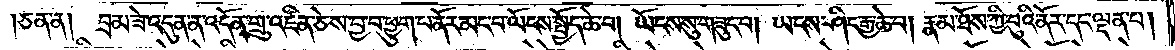ཅན་ན། བྲམ་ཟེ་འདུན་ན་འདོན་གྲུ་འཛིན་ཅེས་བྱ་བ་ཕྱུག་པ་ནོར་མང་བ་ལོངས་སྤྱོད་ཆེ་བ། ཡོངས་སུ་གཟུང་བ། ཡངས་ཤིང་རྒྱ་ཆེ་བ། རྣམ་ཐོས་ཀྱི་བུའི་ནོར་དང་ལྡན་པ།
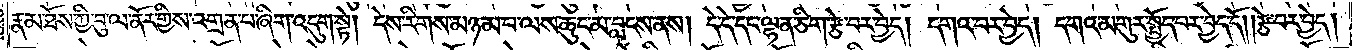རྣམ་ཐོས་ཀྱི་བུ་ལ་ནོར་གྱིས་འགྲན་པ་ཞིག་འདུག་སྟེ། དེས་རིགས་མཉམ་པ་ལས་ཆུང་མ་བླངས་ནས། དེ་དེ་དང་ལྷན་ཅིག་རྩེ་བར་བྱེད། དགའ་བར་བྱེད། དགའ་མགུར་སྤྱོད་པར་བྱེད་དོ། །རྩེ་བར་བྱེད།
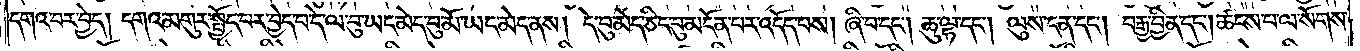དགའ་བར་བྱེད། དགའ་མགུར་སྤྱོད་པར་བྱེད་པ་དེ་ལ་བུ་ཡང་མེད་བུ་མོ་ཡང་མེད་ནས། དེ་བུ་མེད་ཅིང་བུ་མངོན་པར་འདོད་པས། ཞི་བ་དང༌། ཆུ་ལྷ་དང༌། ལུས་ངན་དང༌། བརྒྱ་བྱིན་དང༌། ཚངས་པ་ལ་སོགས་
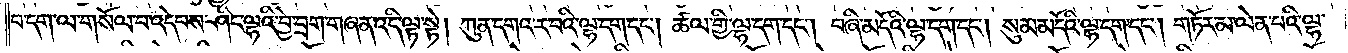བ་དག་ལ་གསོལ་པ་འདེབས་ཤིང་ལྷའི་བྱེ་བྲག་གཞན་འདི་ལྟ་སྟེ། ཀུན་དགའ་ར་བའི་ལྷ་དག་དང༌། ཚལ་གྱི་ལྷ་དག་དང༌། བཞི་མདོའི་ལྷ་དག་དང༌། སུམ་མདོའི་ལྷ་དག་དང༌། གཏོར་མ་ལེན་པའི་ལྷ་
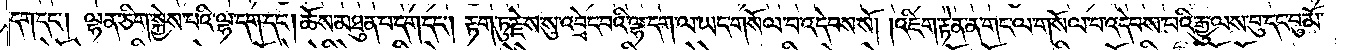དག་དང༌། ལྷན་ཅིག་སྐྱེས་པའི་ལྷ་དག་དང༌། ཆོས་མཐུན་པ་དག་དང༌། རྟག་ཏུ་རྗེས་སུ་འབྲེང་བའི་ལྷ་དག་ལ་ཡང་གསོལ་བ་འདེབས་སོ། །འཇིག་རྟེན་ན་གང་ལ་གསོལ་བ་འདེབས་པའི་རྒྱུ་ལས་བུ་དང་བུ་མོ་
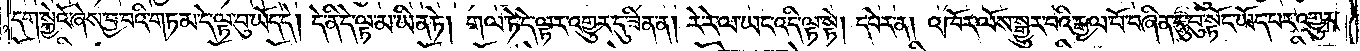དག་སྐྱེའོ་ཞེས་བྱ་བའི་གཏམ་དེ་ལྟ་བུ་ཡོད་དེ། དེ་ནི་དེ་ལྟ་མ་ཡིན་ཏེ། གལ་ཏེ་དེ་ལྟར་འགྱུར་དུ་ཟིན་ན། རེ་རེ་ལ་ཡང་འདི་ལྟ་སྟེ། དཔེར་ན། འཁོར་ལོས་སྒྱུར་བའི་རྒྱལ་པོ་བཞིན་དུ་བུ་སྟོང་ཡོད་པར་འགྱུར་
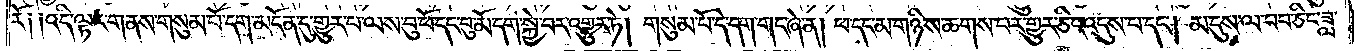རོ༑ ༑འདི་ལྟར་གནས་གསུམ་པོ་དག་མངོན་དུ་གྱུར་པ་ལས་བུ་ཕོ་དང་བུ་མོ་དག་སྐྱེ་བར་འགྱུར་ཏེ། གསུམ་པོ་དེ་དག་གང་ཞེ་ན། ཕ་དང་མ་གཉིས་ཆགས་པར་གྱུར་ཅིང་འདུས་པ་དང༌། མ་དུས་ལ་བབ་ཅིང་ཟླ་
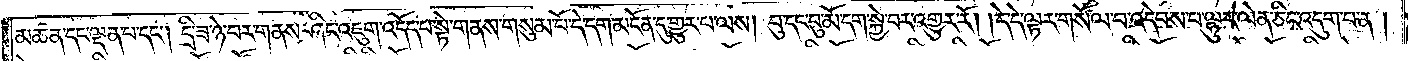མཚན་དང་ལྡན་པ་དང༌། དྲི་ཟ་ཉེ་བར་གནས་ཤིང་འཇུག་འདོད་པ་སྟེ་གནས་གསུམ་པོ་དེ་དག་མངོན་དུ་གྱུར་པ་ལས། བུ་དང་བུ་མོ་དག་སྐྱེ་བར་འགྱུར་རོ། །དེ་དེ་ལྟར་གསོལ་པ་འདེབས་པ་ལྷུར་ལེན་ཅིང་འདུག་པ་ན།
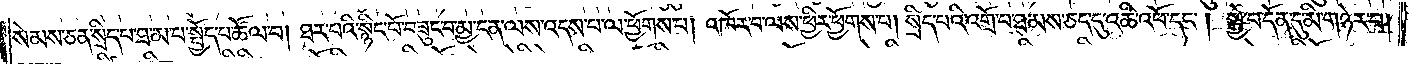སེམས་ཅན་སྲིད་པ་ཐ་མ་པ་སྤྱོད་པ་ཚོལ་བ། ཐར་པའི་སྙིང་པོ་བཟུང་བ་མྱ་ངན་ལས་འདས་པ་ལ་ཕྱོགས་པ། འཁོར་བ་ལས་ཕྱིར་ཕྱོགས་པ། སྲིད་པའི་འགྲོ་བ་ཐམས་ཅད་དུ་འཆི་འཕོ་དང༌། སྐྱེ་བ་དོན་དུ་མི་གཉེར་བ།
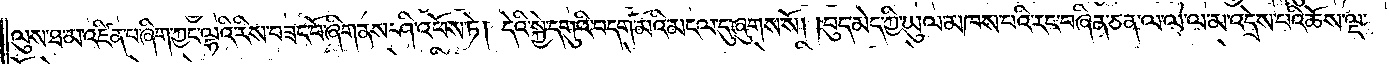ལུས་ཐ་མ་འཛིན་པ་ཞིག་ཀྱང་ལྷའི་རིས་བཟང་པོ་ཞིག་ནས་ཤི་འཕོས་ཏེ། དེའི་སྐྱེ་དགུའི་བདག་མོའི་མངལ་དུ་ཞུགས་སོ། །བུད་མེད་ཀྱི་ཡུལ་མཁས་པའི་རང་བཞིན་ཅན་ལ་ལ་ལ་མ་འདྲེས་པའི་ཆོས་ལྔ་
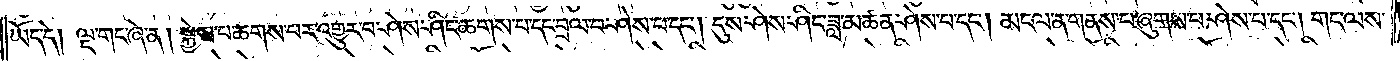ཡོད་དེ། ལྔ་གང་ཞེ་ན། སྐྱེས་པ་ཆགས་པར་འགྱུར་བ་ཤེས་ཤིང་ཆགས་པ་དང་བྲལ་བ་ཤེས་པ་དང༌། དུས་ཤེས་ཤིང་ཟླ་མཚན་ཤེས་པ་དང༌། མངལ་ན་གནས་པ་ཞུགས་པ་ཤེས་པ་དང༌། གང་ལས་
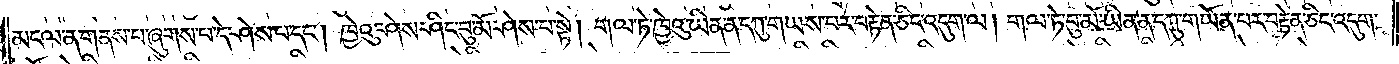མངལ་ན་གནས་པ་ཞུགས་པ་དེ་ཤེས་པ་དང༌། ཁྱེའུ་ཤེས་ཤིང་བུ་མོ་ཤེས་པ་སྟེ། གལ་ཏེ་ཁྱེའུ་ཡིན་ན་དཀུ་གཡས་པར་བརྟེན་ཅིང་འདུག་ལ། གལ་ཏེ་བུ་མོ་ཡིན་ན་དཀུ་གཡོན་པར་བརྟེན་ཅིང་འདུག་
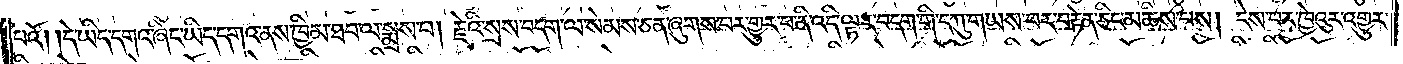པའོ། །དེ་ཡིད་དགའ་ཞིང་ཡིད་དགའ་ནས་ཁྱིམ་ཐབ་ལ་སྨྲས་པ། རྗེའི་སྲས་བདག་ལ་སེམས་ཅན་ཞུགས་པར་གྱུར་པ་ནི་འདི་ལྟར་བདག་གི་དཀུ་གཡས་པར་བརྟེན་ཅིང་མཆིས་པས། ངེས་པར་ཁྱེའུར་འགྱུར་
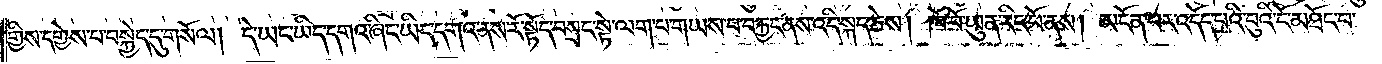གྱིས་དགྱེས་པ་བསྐྱེད་དུ་གསོལ། དེ་ཡང་ཡིད་དགའ་ཞིང་ཡིད་དགའ་ནས་རོ་སྟོད་བསྲང་སྟེ་ལག་པ་གཡས་པ་བརྐྱང་ནས་འདི་སྐད་ཅེས། ཁོ་བོ་ཡུན་རིང་པོ་ནས། མངོན་པར་འདོད་པའི་བུའི་ངོ་མཐོང་བ་
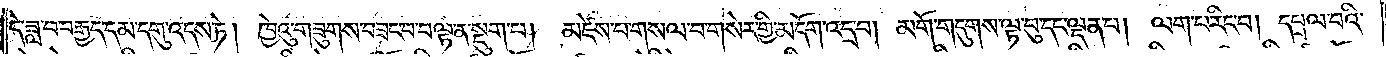དེ་ཟླ་བ་བརྒྱད་དམ་དགུ་འདས་ཏེ། ཁྱེའུ་གཟུགས་བཟང་བ་བལྟ་ན་སྡུག་པ།མཛེས་པ་གསལ་བ་གསེར་གྱི་མདོག་འདྲ་བ། མགོ་གདུགས་ལྟ་བུ་དང་ལྡན་པ། ལག་པ་རིང་བ། དཔྲལ་བའི་
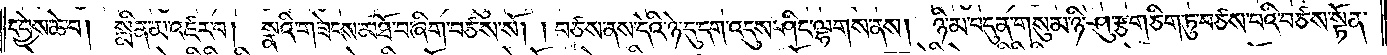དབྱེས་ཆེ་བ། སྨིན་མ་འཛར་བ། སྣའི་གཟེངས་མཐོ་བ་ཞིག་བཙས་སོ། །བཙས་ནས་དེའི་ཉེ་དུ་དག་འདུས་ཤིང་ལྷགས་ནས། ཉི་མ་བདུན་གསུམ་ཉི་ཤུ་རྩ་གཅིག་ཏུ་བཙས་པའི་བཙས་སྟོན་
